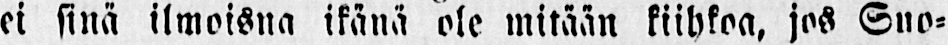ei sinä ilmoisna ikänä ole mitään kiihkoa, jos Suo-
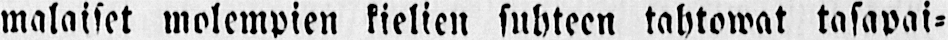malaiset molempien kielien suhteen tahtowat tasapai-
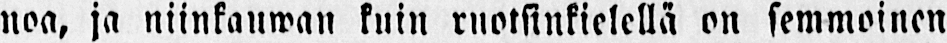noa, ja niinkauwan kuin ruotsinkielellä on semmoinen
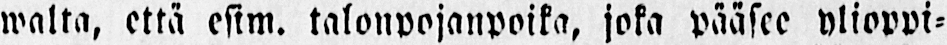walta, että esim. talonpojanpoika, joka pääsee ylioppi-
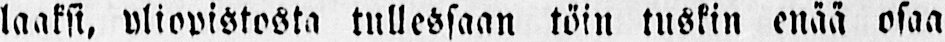laaksi, yliopistosta tullessaan töin tuskin enää osaa
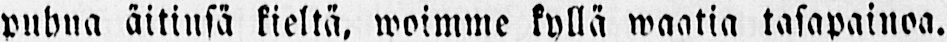puhua äitinsä kieltä, woimme kyllä waatia tasapainoa.
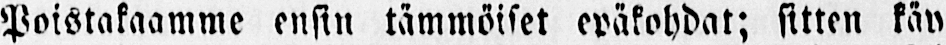Poistakaamme ensin tämmöiset epäkohdat; sitten käy
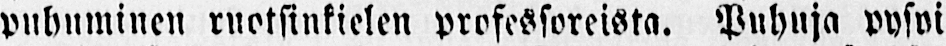puhuminen ruotsinkielen professoreista. Puhuja pysyi
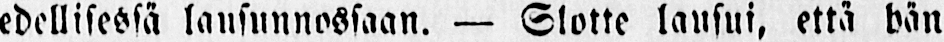edellisessä lansunnossaan. — Slotte lausui, että hän
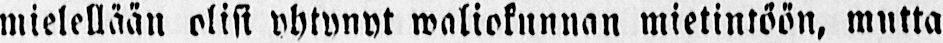mielellään olisi yhtynyt waliokunnan mietintöön, mutta
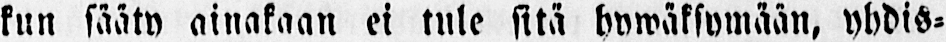kun sääty ainakaan ei tule sitä hywäksymään, yhdis-
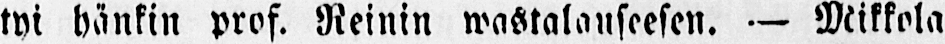tyi hänkin prof. Reinin wastalauseesen. — Mikkola
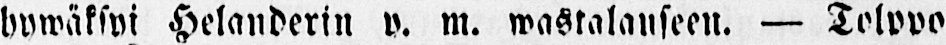hywäksyi Helanderin y. m. wastalauseen. — Tolppo
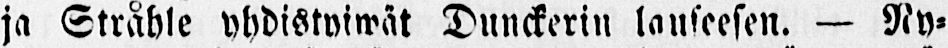ja Stråhle yhdistyiwät Dunckerin lauseesen. — Ny-
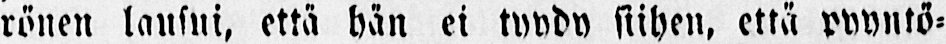rönen lausui, että hän ei tyydy siihen, että pyyntö-
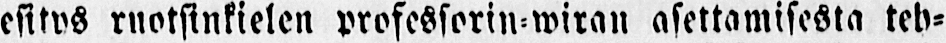esitys ruotsinkielen professorin-wiran asettamisesta teh-
